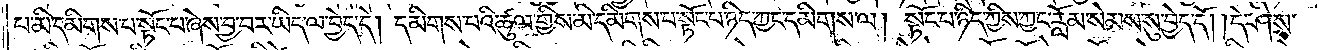པ་མི་དམིགས་པ་སྟོང་པ་ཞེས་བྱ་བར་ཡིད་ལ་བྱེད་དེ། དམིགས་པའི་ཚུལ་གྱིས་མི་དམིགས་པ་སྟོང་པ་ཉིད་ཀྱང་དམིགས་ལ། སྟོང་པ་ཉིད་ཀྱིས་ཀྱང་རློམ་སེམས་སུ་བྱེད་དོ། །དེ་ཤེས་
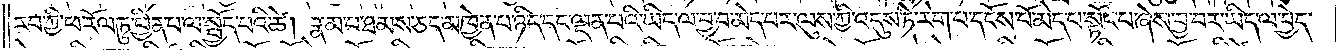རབ་ཀྱི་ཕ་རོལ་ཏུ་ཕྱིན་པ་ལ་སྤྱོད་པའི་ཚེ། རྣམ་པ་ཐམས་ཅད་མཁྱེན་པ་ཉིད་དང་ལྡན་པའི་ཡིད་ལ་བྱ་བ་མེད་པར་ལུས་ཀྱི་འདུས་ཏེ་རེག་པ་དངོས་པོ་མེད་པ་སྟོང་པ་ཞེས་བྱ་བར་ཡིད་ལ་བྱེད་
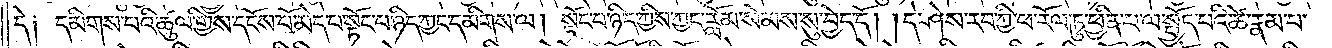དེ༑ དམིགས་པའི་ཚུལ་གྱིས་དངོས་པོ་མེད་པ་སྟོང་པ་ཉིད་ཀྱང་དམིགས་ལ། སྟོང་པ་ཉིད་ཀྱིས་ཀྱང་རློམ་སེམས་སུ་བྱེད་དོ། །དེ་ཤེས་རབ་ཀྱི་ཕ་རོལ་ཏུ་ཕྱིན་པ་ལ་སྤྱོད་པའི་ཚེ་རྣམ་པ་
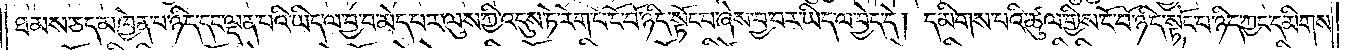ཐམས་ཅད་མཁྱེན་པ་ཉིད་དང་ལྡན་པའི་ཡིད་ལ་བྱ་བ་མེད་པར་ལུས་ཀྱི་འདུས་ཏེ་རེག་པ་ངོ་བོ་ཉིད་སྟོང་པ་ཞེས་བྱ་བར་ཡིད་ལ་བྱེད་དེ། དམིགས་པའི་ཚུལ་གྱིས་ངོ་བོ་ཉིད་སྟོང་པ་ཉིད་ཀྱང་དམིགས་
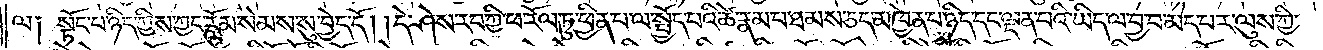ལ༑ སྟོང་པ་ཉིད་ཀྱིས་ཀྱང་རློམ་སེམས་སུ་བྱེད་དོ། །དེ་ཤེས་རབ་ཀྱི་ཕ་རོལ་ཏུ་ཕྱིན་པ་ལ་སྤྱོད་པའི་ཚེ་རྣམ་པ་ཐམས་ཅད་མཁྱེན་པ་ཉིད་དང་ལྡན་པའི་ཡིད་ལ་བྱ་བ་མེད་པར་ལུས་ཀྱི་
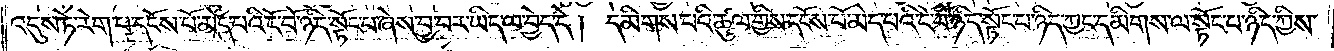འདུས་ཏེ་རེག་པ་དངོས་པོ་མེད་པའི་ངོ་བོ་ཉིད་སྟོང་པ་ཞེས་བྱ་བར་ཡིད་ལ་བྱེད་དེ། དམིགས་པའི་ཚུལ་གྱིས་དངོས་པོ་མེད་པའི་ངོ་བོ་ཉིད་སྟོང་པ་ཉིད་ཀྱང་དམིགས་ལ་སྟོང་པ་ཉིད་ཀྱིས་
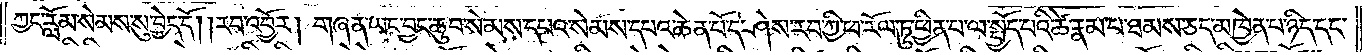ཀྱང་རློམ་སེམས་སུ་བྱེད་དོ། །རབ་འབྱོར། གཞན་ཡང་བྱང་ཆུབ་སེམས་དཔའ་སེམས་དཔའ་ཆེན་པོ་དེ་ཤེས་རབ་ཀྱི་ཕ་རོལ་ཏུ་ཕྱིན་པ་ལ་སྤྱོད་པའི་ཚེ་རྣམ་པ་ཐམས་ཅད་མཁྱེན་པ་ཉིད་དང་
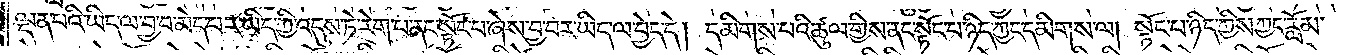ལྡན་པའི་ཡིད་ལ་བྱ་བ་མེད་པར་ཡིད་ཀྱི་འདུས་ཏེ་རེག་པ་ནང་སྟོང་པ་ཞེས་བྱ་བར་ཡིད་ལ་བྱེད་དེ། དམིགས་པའི་ཚུལ་གྱིས་ནང་སྟོང་པ་ཉིད་ཀྱང་དམིགས་ལ། སྟོང་པ་ཉིད་ཀྱིས་ཀྱང་རློམ་
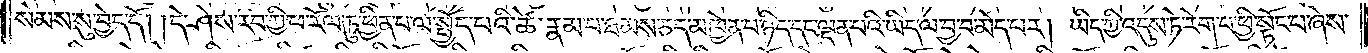སེམས་སུ་བྱེད་དོ། །དེ་ཤེས་རབ་ཀྱི་ཕ་རོལ་ཏུ་ཕྱིན་པ་ལ་སྤྱོད་པའི་ཚེ་རྣམ་པ་ཐམས་ཅད་མཁྱེན་པ་ཉིད་དང་ལྡན་པའི་ཡིད་ལ་བྱ་བ་མེད་པར། ཡིད་ཀྱི་འདུས་ཏེ་རེག་པ་ཕྱི་སྟོང་པ་ཞེས་
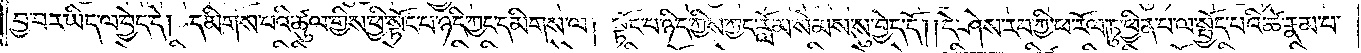བྱ་བར་ཡིད་ལ་བྱེད་དེ། དམིགས་པའི་ཚུལ་གྱིས་ཕྱི་སྟོང་པ་ཉིད་ཀྱང་དམིགས་ལ། སྟོང་པ་ཉིད་ཀྱིས་ཀྱང་རློམ་སེམས་སུ་བྱེད་དོ། །དེ་ཤེས་རབ་ཀྱི་ཕ་རོལ་ཏུ་ཕྱིན་པ་ལ་སྤྱོད་པའི་ཚེ་རྣམ་པ་
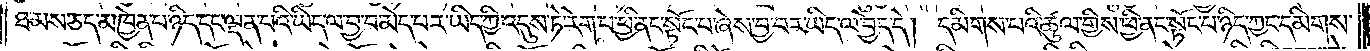ཐམས་ཅད་མཁྱེན་པ་ཉིད་དང་ལྡན་པའི་ཡིད་ལ་བྱ་བ་མེད་པར་ཡིད་ཀྱི་འདུས་ཏེ་རེག་པ་ཕྱི་ནང་སྟོང་པ་ཞེས་བྱ་བར་ཡིད་ལ་བྱེད་དེ། དམིགས་པའི་ཚུལ་གྱིས་ཕྱི་ནང་སྟོང་པ་ཉིད་ཀྱང་དམིགས་
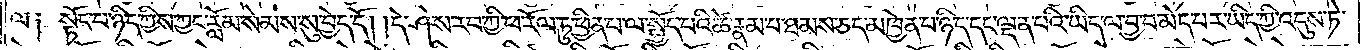ལ༑ སྟོང་པ་ཉིད་ཀྱིས་ཀྱང་རློམ་སེམས་སུ་བྱེད་དོ། །དེ་ཤེས་རབ་ཀྱི་ཕ་རོལ་ཏུ་ཕྱིན་པ་ལ་སྤྱོད་པའི་ཚེ་རྣམ་པ་ཐམས་ཅད་མཁྱེན་པ་ཉིད་དང་ལྡན་པའི་ཡིད་ལ་བྱ་བ་མེད་པར་ཡིད་ཀྱི་འདུས་ཏེ་
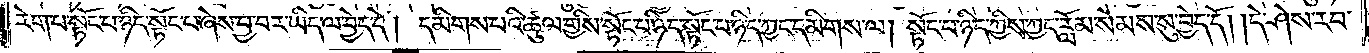རེག་པ་སྟོང་པ་ཉིད་སྟོང་པ་ཞེས་བྱ་བར་ཡིད་ལ་བྱེད་དེ། དམིགས་པའི་ཚུལ་གྱིས་སྟོང་པ་ཉིད་སྟོང་པ་ཉིད་ཀྱང་དམིགས་ལ། སྟོང་པ་ཉིད་ཀྱིས་ཀྱང་རློམ་སེམས་སུ་བྱེད་དོ། །དེ་ཤེས་རབ་
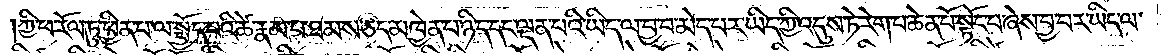ཀྱི་ཕ་རོལ་ཏུ་ཕྱིན་པ་ལ་སྤྱོད་པའི་ཚེ་རྣམ་པ་ཐམས་ཅད་མཁྱེན་པ་ཉིད་དང་ལྡན་པའི་ཡིད་ལ་བྱ་བ་མེད་པར་ཡིད་ཀྱི་འདུས་ཏེ་རེག་པ་ཆེན་པོ་སྟོང་པ་ཞེས་བྱ་བར་ཡིད་ལ་
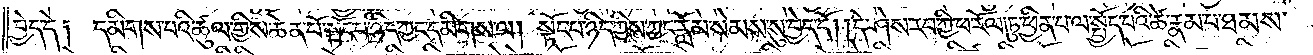བྱེད་དེ༑ དམིགས་པའི་ཚུལ་གྱིས་ཆེན་པོ་སྟོང་པ་ཉིད་ཀྱང་དམིགས་ལ། སྟོང་པ་ཉིད་ཀྱིས་ཀྱང་རློམ་སེམས་སུ་བྱེད་དོ། །དེ་ཤེས་རབ་ཀྱི་ཕ་རོལ་ཏུ་ཕྱིན་པ་ལ་སྤྱོད་པའི་སྟེ་རྣམ་པ་ཐམས་
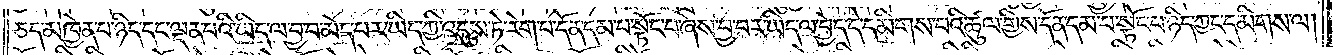ཅད་མཁྱེན་པ་ཉིད་དང་ལྡན་པའི་ཡིད་ལ་བྱ་བ་མེད་པར་ཡིད་ཀྱི་འདུས་ཏེ་རེག་པ་དོན་དམ་པ་སྟོང་པ་ཞེས་བྱ་བར་ཡིད་ལ་བྱེད་དེ་དམིགས་པའི་ཚུལ་གྱིས་དོན་དམ་པ་སྟོང་པ་ཉིད་ཀྱང་དམིགས་ལ།
